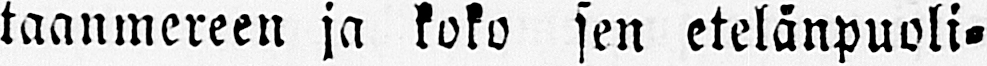taanmereen ja koko sen etelänpuoli-
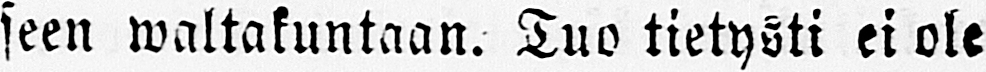seen waltakuntaan. Tuo tietysti ei ole
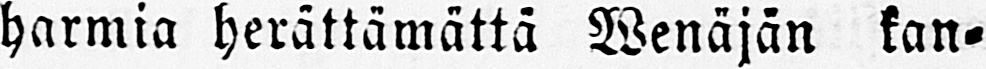harmia herättämättä Wenäjän kan-
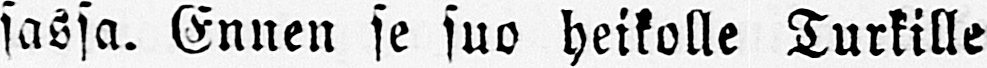sassa. Ennen se suo heikolle Turkille
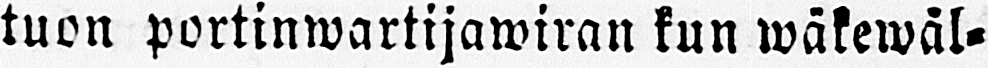tuon portinwartijawiran kun wäkewäl-
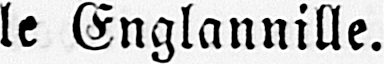le Englannille.
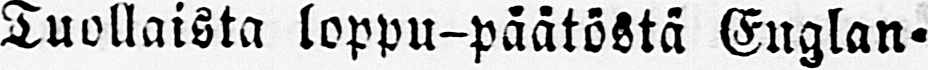Tuollaista loppu-päätöstä Englan-
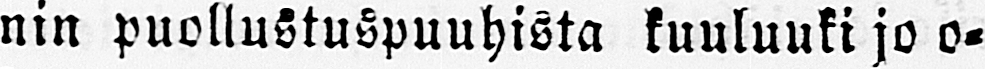nin puollustuspuuhista kuuluuki jo o-
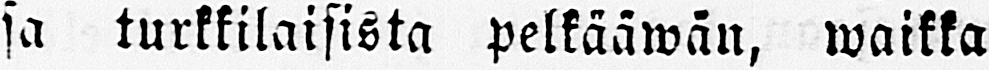sa turkkilaisista pelkääwän, waikka
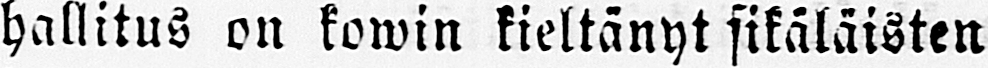hallitus on kowin kieltänyt sikäläisten
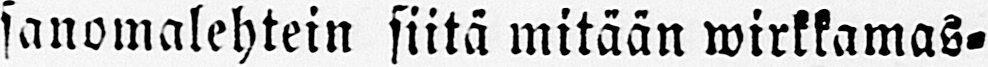sanomalehtein siitä mitään wirkkamas-
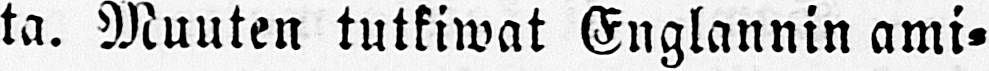ta. Muuten tutkiwat Englannin ami-
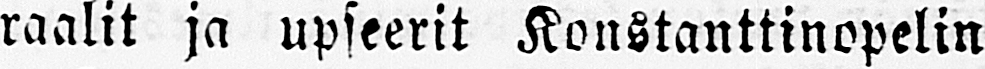raalit ja upseerit Konstanttinopelin
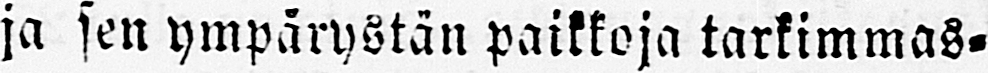ja sen ympärystän paikkoja tarkimmas-
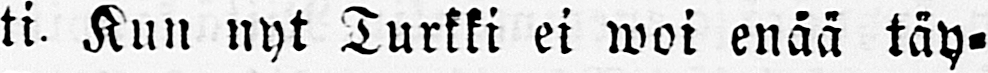ti. Kun nyt Turkki ei woi enää täy-
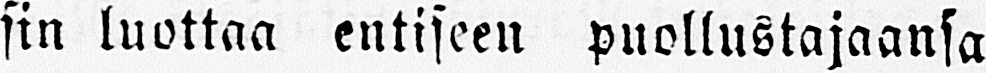sin luottaa entiseen puollustajaansa
